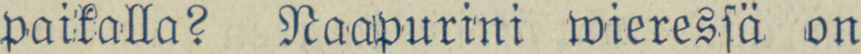paikalla? Naapurini wieressä on
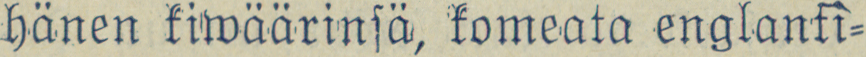hänen kiwäärinsä, komeata englanti-
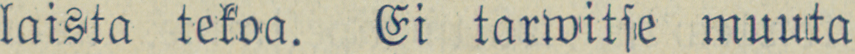laista tekoa. Ei tarwitse muuta
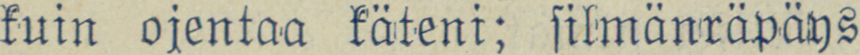kuin ojentaa käteni; silmänräpäys
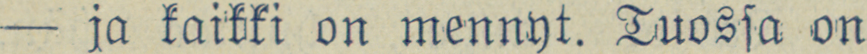— ja kaikki on mennyt. Tuossa on
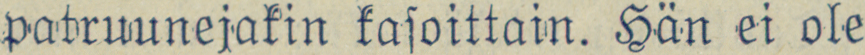patruunejakin kasoittain. Hän ei ole
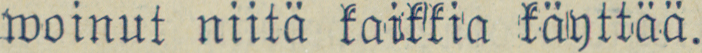woinut niitä kaikkia käyttää.
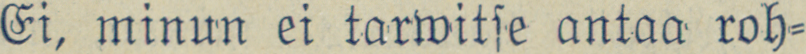Ei, minun ei tarwitse antaa roh-
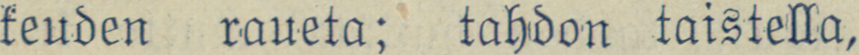keuden raueta; tahdon taistella,
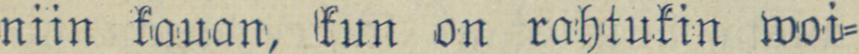niin kauan, kun on rahtukin woi-
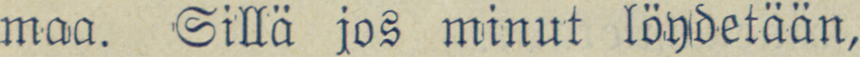maa. Sillä jos minut löydetään,
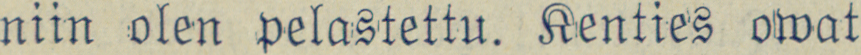niin olen pelastettu. Kenties owat
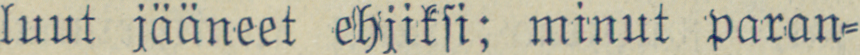luut jääneet ehjiksi; minut paran-
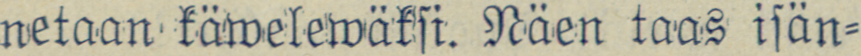netaan käwelewäksi. Näen taas isän-
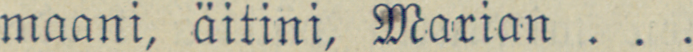maani, äitini, Marian . . .
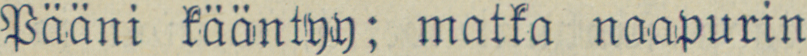Pääni kääntyy; matka naapurin
